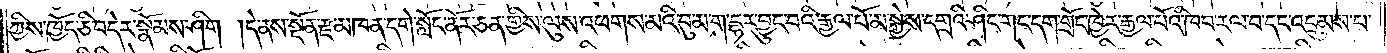ཀྱིས་ཁྱོད་ཅི་བདེར་སྣོམས་ཤིག །དེ་ནས་སྔོན་རྫ་མཁན་དགེ་སློང་ནོར་ཅན་གྱིས་ལུས་འཕགས་མའི་བུ་མ་ག་དྷར་བྱུང་བའི་རྒྱལ་པོ་མ་སྐྱེས་དགྲའི་ཤིང་གང་དག་གྲོང་ཁྱེར་རྒྱལ་པོའི་ཁབ་རལ་བ་དང་འདྲུམས་པ་
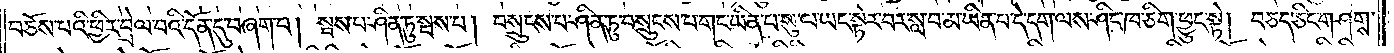བཅོས་པའི་ཕྱིར་བྲེལ་བའི་དོན་དུ་བཞག་པ། སྦས་པ་ཤིན་ཏུ་སྦས་པ། བསྲུངས་པ་ཤིན་ཏུ་བསྲུངས་པ་གང་ཡིན་པ་སུ་ལ་ཡང་སྟེར་བར་སླ་བ་མ་ཡིན་པ་དེ་དག་ལས་ཤིང་ཁ་ཅིག་ཕྱུང་སྟེ། བཅད་ཅིང་གཤགས་
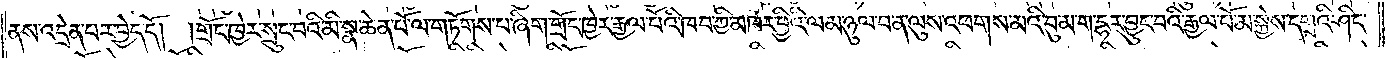ནས་འདྲེན་པར་བྱེད་དོ། །གྲོང་ཁྱེར་སྲུང་བའི་མི་སྣ་ཆེན་པོ་ལ་གཏོགས་པ་ཞིག་གྲོང་ཁྱེར་རྒྱལ་པོའི་ཁབ་ཀྱི་མཁར་ཕྱིའི་ལམ་ཉུལ་བ་ན་ལུས་འཕགས་མའི་བུ་མ་ག་དྷར་བྱུང་བའི་རྒྱལ་པོ་མ་སྐྱེས་དགྲའི་ཤིང་
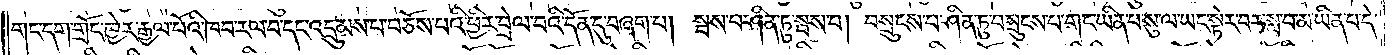གང་དག་གྲོང་ཁྱེར་རྒྱལ་པོའི་ཁབ་རལ་བ་དང་འདྲུམས་པ་བཅོས་པའི་ཕྱིར་བྲེལ་བའི་དོན་དུ་བཞག་པ། སྦས་པ་ཤིན་ཏུ་སྦས་པ། བསྲུངས་པ་ཤིན་ཏུ་བསྲུངས་པ་གང་ཡིན་པ་སུ་ལ་ཡང་སྟེར་བར་སླ་བ་མ་ཡིན་པ་དེ་
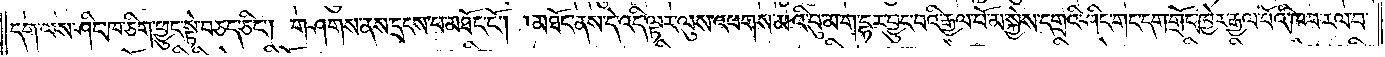དག་ལས་ཤིང་ཁ་ཅིག་ཕྱུང་སྟེ་བཅད་ཅིང༌། གཤགས་ནས་དྲངས་པ་མཐོང་ངོ༌། །མཐོང་ནས་དེ་འདི་ལྟར་ལུས་འཕགས་མའི་བུ་མ་ག་དྷར་བྱུང་བའི་རྒྱལ་པོ་མ་སྐྱེས་དགྲའི་ཤིང་གང་དག་གྲོང་ཁྱེར་རྒྱལ་པོའི་ཁབ་རལ་བ་
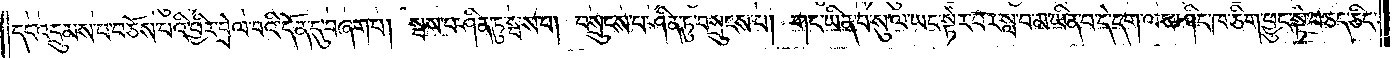དང་འདྲུམས་པ་བཅོས་པའི་ཕྱིར་བྲེལ་བའི་དོན་དུ་བཞག་པ། སྦས་པ་ཤིན་ཏུ་སྦས་པ། བསྲུངས་པ་ཤིན་ཏུ་བསྲུངས་པ། གང་ཡིན་པ་སུ་ལ་ཡང་སྟེར་བར་སླ་བ་མ་ཡིན་པ་དེ་དག་ལས་ཤིང་ཁ་ཅིག་ཕྱུང་སྟེ་བཅད་ཅིང་
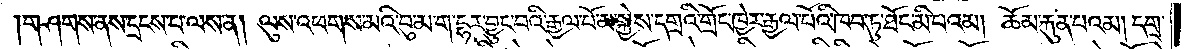གཤགས་ནས་དྲངས་པ་ལས་ན། ལུས་འཕགས་མའི་བུ་མ་ག་དྷར་བྱུང་བའི་རྒྱལ་པོ་མ་སྐྱེས་དགྲའི་གྲོང་ཁྱེར་རྒྱལ་པོའི་ཁབ་ཏུ་ཐོང་མི་པའམ། ཆོམ་རྐུན་པའམ། དགྲ་
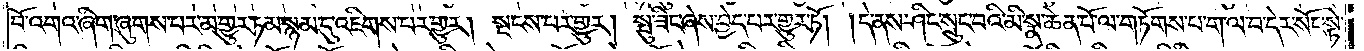པོ་འགའ་ཞིག་ཞུགས་པར་མ་གྱུར་ཏམ་སྙམ་དུ་འཇིགས་པར་གྱུར། སྡངས་པར་གྱུར། སྤུ་ཟིང་ཞེས་བྱེད་པར་གྱུར་ཏོ། །དེ་ནས་ཤིང་སྲུང་བའི་མི་སྣ་ཆེན་པོ་ལ་གཏོགས་པ་ག་ལ་བ་དེར་སོང་སྟེ་
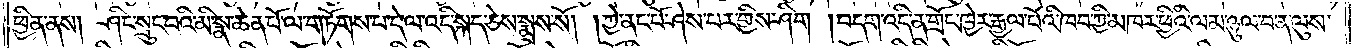ཕྱིན་ནས། ཤིང་སྲུང་བའི་མི་སྣ་ཆེན་པོ་ལ་གཏོགས་པ་དེ་ལ་འདི་སྐད་ཅེས་སྨྲས་སོ། །ཀྱེ་ནང་པོ་ཤེས་པར་གྱིས་ཤིག། བདག་འདི་ན་གྲོང་ཁྱེར་རྒྱལ་པོའི་ཁབ་ཀྱི་མཁར་ཕྱིའི་ལམ་ཉུལ་བ་ན་ལུས་
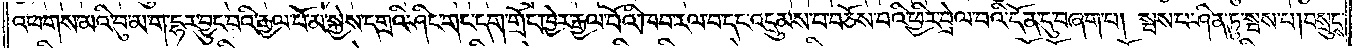འཕགས་མའི་བུ་མ་ག་དྷར་བྱུང་བའི་རྒྱལ་པོ་མ་སྐྱེས་དགྲའི་ཤིང་གང་དག་གྲོང་ཁྱེར་རྒྱལ་པོའི་ཁབ་རལ་བ་དང་འདྲུམས་པ་བཅོས་པའི་ཕྱིར་བྲེལ་བའི་དོན་དུ་བཞག་པ། སྦས་པ་ཤིན་ཏུ་སྦས་པ། བསྲུངས་
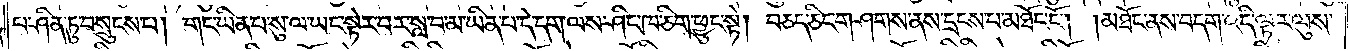པ་ཤིན་ཏུ་བསྲུངས་པ། གང་ཡིན་པ་སུ་ལ་ཡང་སྟེར་བར་སླ་བ་མ་ཡིན་པ་དེ་དག་ལས་ཤིང་ཁ་ཅིག་ཕྱུང་སྟེ། བཅད་ཅིང་གཤགས་ནས་དྲངས་པ་མཐོང་ངོ༌། །མཐོང་ནས་བདག་འདི་ལྟར་ལུས་
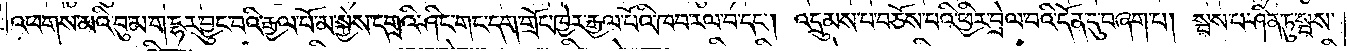འཕགས་མའི་བུ་མ་ག་དྷར་བྱུང་བའི་རྒྱལ་པོ་མ་སྐྱེས་དགྲའི་ཤིང་གང་དག་གྲོང་ཁྱེར་རྒྱལ་པོའི་ཁབ་རལ་བ་དང༌། འདྲུམས་པ་བཅོས་པའི་ཕྱིར་བྲེལ་བའི་དོན་དུ་བཞག་པ། སྦས་པ་ཤིན་ཏུ་སྦས་
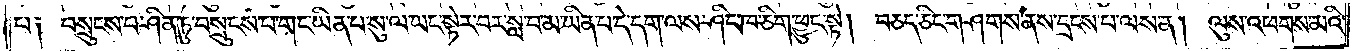པ༑ བསྲུངས་པ་ཤིན་ཏུ་བསྲུངས་པ་གང་ཡིན་པ་སུ་ལ་ཡང་སྟེར་བར་སླ་བ་མ་ཡིན་པ་དེ་དག་ལས་ཤིང་ཁ་ཅིག་ཕྱུང་སྟེ། བཅད་ཅིང་གཤགས་ནས་དྲངས་པ་ལས་ན། ལུས་འཕགས་མའི་
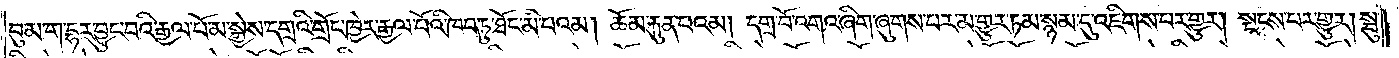བུམ་ག་དྷར་བྱུང་བའི་རྒྱལ་པོ་མ་སྐྱེས་དགྲའི་གྲོང་ཁྱེར་རྒྱལ་པོའི་ཁབ་ཏུ་ཐོང་མི་པའམ། ཆོམ་རྐུན་པའམ། དགྲ་བོ་འགའ་ཞིག་ཞུགས་པར་མ་གྱུར་ཏམ་སྙམ་དུ་འཇིགས་པར་གྱུར། སྡངས་པར་གྱུར། སྤུ་
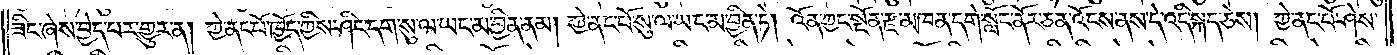ཟིང་ཞེས་བྱེད་པར་གྱུར་ན། ཀྱེ་ནང་པོ་ཁྱོད་ཀྱིས་ཤིང་དག་སུ་ལ་ཡང་མ་བྱིན་ནམ། ཀྱེ་ནང་པོ་སུ་ལ་ཡང་མ་བྱིན་ཏེ། འོན་ཀྱང་སྔོན་རྫ་མཁན་དགེ་སློང་ནོར་ཅན་འོངས་ནས་དེ་འདི་སྐད་ཅེས། ཀྱེ་ནང་པོ་ཤེས་
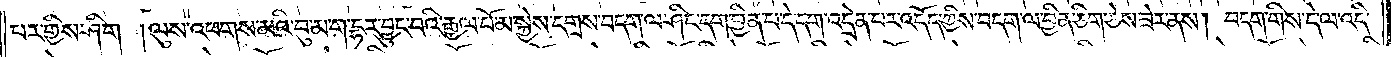པར་གྱིས་ཤིག །ལུས་འཕགས་མའི་བུ་མ་ག་དྷར་བྱུང་བའི་རྒྱལ་པོ་མ་སྐྱེས་དགྲས་བདག་ལ་ཤིང་དག་བྱིན་པ་དེ་དག་འདྲེན་པར་འདོད་ཀྱིས་བདག་ལ་བྱིན་ཅིག་ཅེས་ཟེར་ནས། བདག་གིས་དེ་ལ་འདི་
